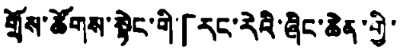གྲོས་ཚོགས་སྟེང་གི་「རང་རེའི་ཞིང་ཆེན་གྱི་
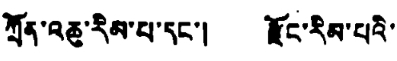ཀྲོན་འཆུ་རིམ་པ་དང་། རྫོང་རིམ་པའི་
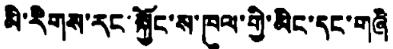མི་རིགས་རང་སྐྱོང་ས་ཁུལ་གྱི་མིང་དང་གཞི
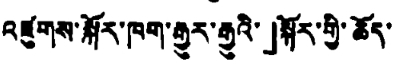འཛུགས་སྐོར་ཁག་རྒྱུར་རྒྱུའི་」སྐོར་གྱི་ཆོད་
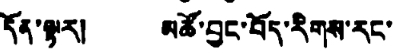དོན་ལྟར། མཚོ་བྱང་བོད་རིགས་རང་
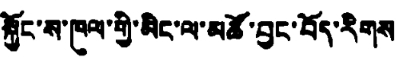སྐྱོང་ས་ཁུལ་གྱི་མིང་ལ་མཚོ་བྱང་བོད་རིགས
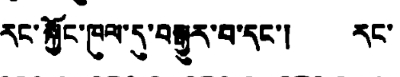རང་སྐྱོང་ཁུལ་དུ་བརྒྱུར་བ་དང་། རང་
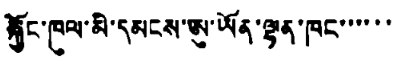སྐྱོང་ཁུལ་མི་དམངས་ཨུ་ཡོན་ལྷན་ཁང་་་་་་
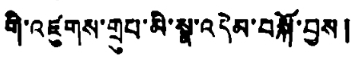གི་འཛུགས་གྲུབ་མི་སྣ་འདེམ་བསྐོ་བྱས།
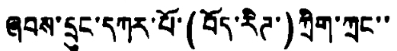ཞབས་དྲུང་དཀར་པོ་(བོད་རིཊ་)ཀྲིག་ཀྲང་་
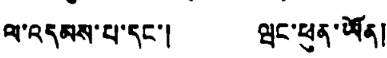ལ་འདམས་པ་དང་། ཝང་ཕུན་ཡོན།
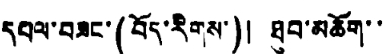བལ་བཟང་(བོད་རིགས་)། ཐུབ་མཆོག་་
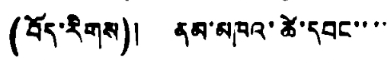(བོད་རིགས།)། ནམ་མཁའ་ཚེ་དབང་་་་
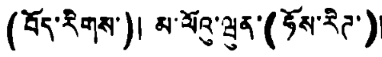(བོད་རིགས་)། མ་ལོའུ་ཝུན་(ཧོས་རིཊ་)།
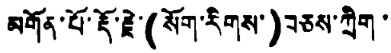མགོན་པོ་རྡོ་རྗེ་(སོག་རིགས་)བཅས་ཀྲིག་
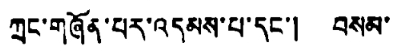ཀྲང་གཞོན་པར་འདམས་པ་དང་། བསམ་
